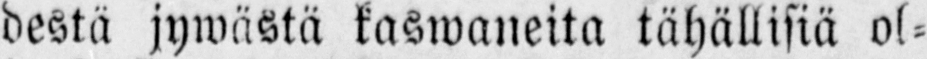destä jyästä kaswaneita tähällisiä ol-
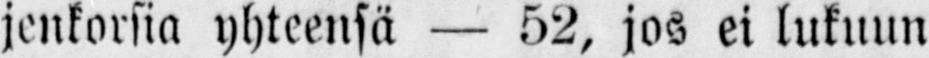jenkorsia yhteensä — 52, jos ei lukuun
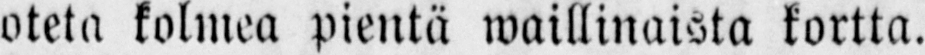oteta kolmea pientä waillinaista kortta.
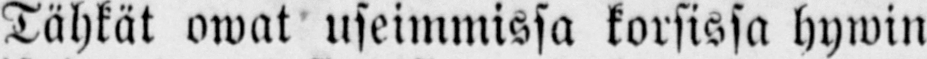Tähkät owat useimmissa korsissa hywin
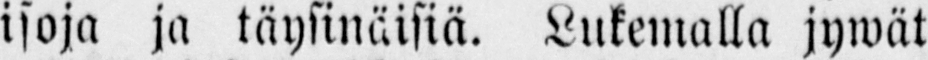isoja ja täysinäisiä, lukemalla jywät
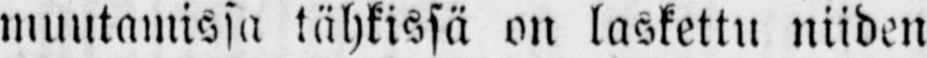muutamissa tähkissä on laskettu niiden
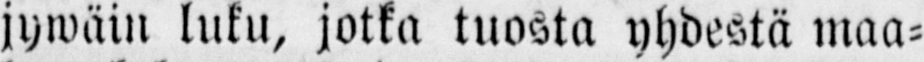jywäin luku, jotka tuosta yhdestä maa-
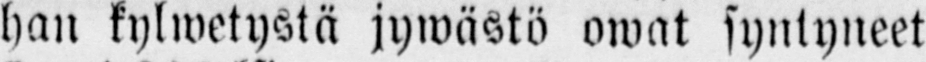han kylwetystä jywästö owat syntyneet
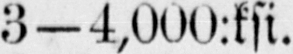3—4,000:ksi.
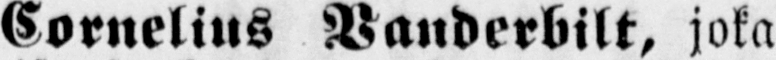Cornelius Vanderbilt, joka
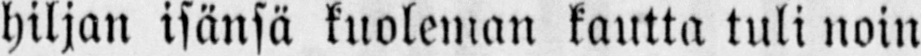hiljan isänsä kuoleman kautta tuli noin
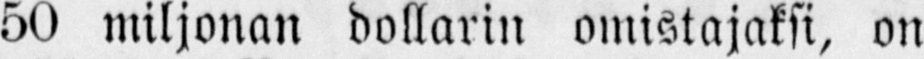50 miljonan dollarin omistajaksi, on
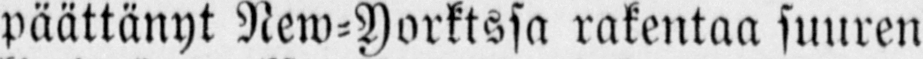päättänyt New-Yorktssa rakentaa suuren
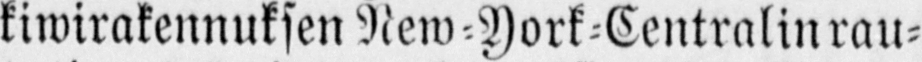kiwirakennuksen New -York-Centralin rau-
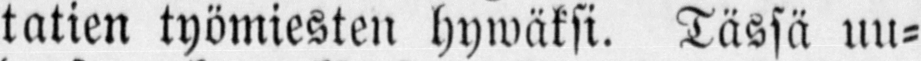tatien työmiesten hywäksi. Tässä uu-
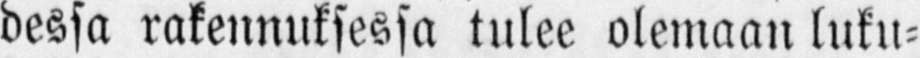dessa rakennuksessa tulee olemaan luku-
